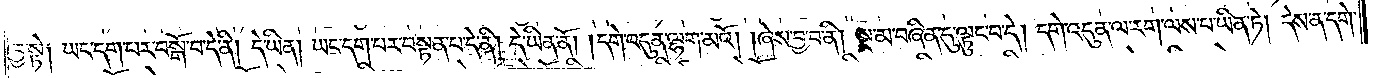བྱ་སྟེ༑ ཡང་དག་པར་བསྒོ་བ་དེ་ནི། དེ་ཡིན། ཡང་དག་པར་བསྟན་པ་དེ་ནི། དེ་ཡིན་ནོ། །དགེ་འདུན་ལྷག་མའོ། །ཞེས་བྱ་བ་ནི། སྔ་མ་བཞིན་དུ་ལྟུང་བ་དེ། དགེ་འདུན་ལ་རག་ལས་པ་ཡིན་ཏེ། དེས་ན་དགེ་
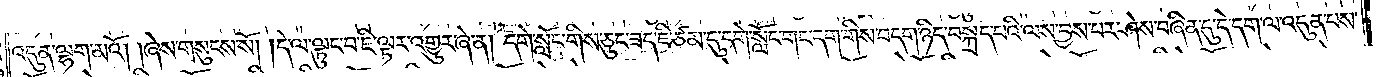འདུན་ལྷག་མའོ། །ཞེས་གསུངས་སོ། །དེ་ལ་ལྟུང་བ་ཇི་ལྟར་འགྱུར་ཞེ་ན། དགེ་སློང་གིས་ཅུང་ཟད་ཇི་ཙམ་དུ་དགེ་སློང་གང་དག་གིས་བདག་ཉིད་བསྐྲད་པའི་ལས་བྱས་པར་ཤེས་བཞིན་དུ་དེ་དག་ལ་འདུན་པས་
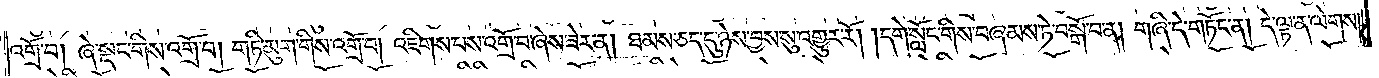འགྲོ་བ། ཞེ་སྡང་གིས་འགྲོ་བ། གཏི་མུག་གིས་འགྲོ་བ། འཇིགས་པས་འགྲོ་བ་ཞེས་ཟེར་ན། ཐམས་ཅད་དུ་ཉེས་བྱས་སུ་འགྱུར་རོ། །དགེ་སློང་གིས་བཞམས་ཏེ་བསྒོ་བ་ན། གཞི་དེ་གཏོང་ན། དེ་ལྟ་ན་ལེགས།
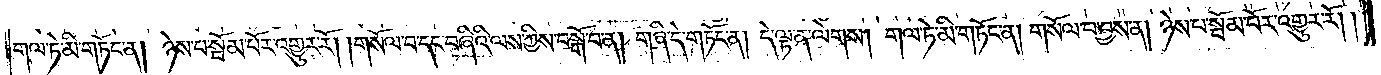གལ་ཏེ་མི་གཏོང་ན། ཉེས་པ་སྦོམ་པོར་འགྱུར་རོ། །གསོལ་བ་དང་བཞིའི་ལས་ཀྱིས་བསྒོ་བ་ན། གཞི་དེ་གཏོང་ན། དེ་ལྟ་ན་ལེགས། གལ་ཏེ་མི་གཏོང་ན། གསོལ་བ་བྱས་ན། ཉེས་པ་སྦོམ་པོར་འགྱུར་རོ། །
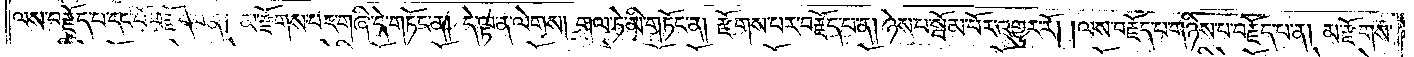ལས་བརྗོད་པ་དང་པོ་བརྗོད་པ་ན། མ་རྫོགས་པར་གཞི་དེ་གཏོང་ན། དེ་ལྟ་ན་ལེགས། གལ་ཏེ་མི་གཏོང་ན། རྫོགས་པར་བརྗོད་པ་ན། ཉེས་པ་སྦོམ་པོར་འགྱུར་རོ། །ལས་བརྗོད་པ་གཉིས་པ་བརྗོད་པ་ན། མ་རྫོགས་
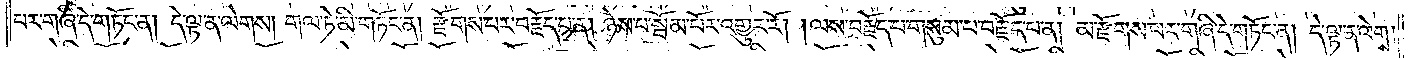པར་གཞི་དེ་གཏོང་ན། དེ་ལྟ་ན་ལེགས། གལ་ཏེ་མི་གཏོང་ན། རྫོགས་པར་བརྗོད་པ་ན། ཉེས་པ་སྦོམ་པོར་འགྱུར་རོ། །ལས་བརྗོད་པ་གསུམ་པ་བརྗོད་པ་ན། མ་རྫོགས་པར་གཞི་དེ་གཏོང་ན། དེ་ལྟ་ན་ལེགས་
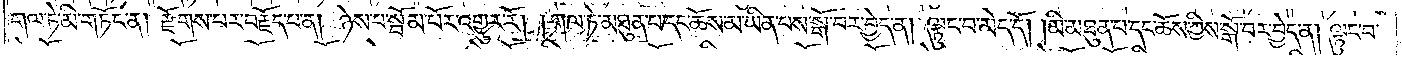གལ་ཏེ་མི་གཏོང་ན། རྫོགས་པར་བརྗོད་པ་ན། ཉེས་པ་སྦོམ་པོར་འགྱུར་རོ། །གལ་ཏེ་མཐུན་པ་དང་ཆོས་མ་ཡིན་པས་སྒོ་བར་བྱེད་ན། ལྟུང་བ་མེད་དོ། །མི་མཐུན་པ་དང་ཆོས་ཀྱིས་སྒོ་བར་བྱེད་ན། ལྟུང་བ་
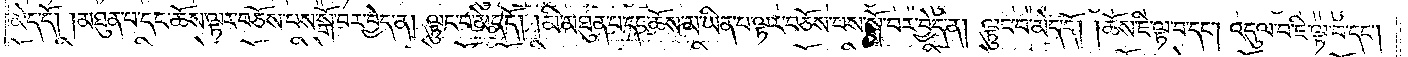མེད་དོ། །མཐུན་པ་དང་ཆོས་ལྟར་བཅོས་པས་སྒོ་བར་བྱེད་ན། ལྟུང་བ་མེད་དོ། །མི་མཐུན་པ་དང་ཆོས་མ་ཡིན་པ་ལྟར་བཅོས་པས་སྒོ་བར་བྱེད་ན། ལྟུང་བ་མེད་དོ། །ཆོས་ཇི་ལྟ་བ་དང༌། འདུལ་བ་ཇི་ལྟ་བ་དང༌།
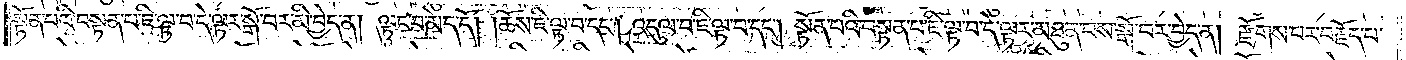སྟོན་པའི་བསྟེན་པ་ཇི་ལྟ་བ་དེ་ལྟར་སྒོ་བར་མི་བྱེད་ན། ལྟུང་བ་མེད་དོ། །ཆོས་ཇི་ལྟ་བ་དང༌། འདུལ་བ་ཇི་ལྟ་བ་དང༌། སྟོན་པའི་བསྟན་པ་ཇི་ལྟ་བ་དེ་ལྟར་མཐུན་པས་སྒོ་བར་བྱེད་ན། རྫོགས་པར་བརྗོད་པ་
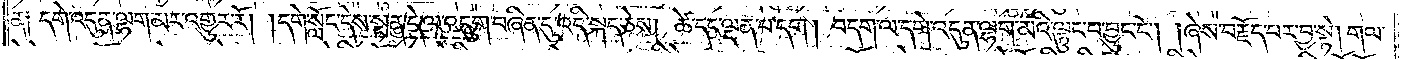ན༑ དགེ་འདུན་ལྷག་མར་འགྱུར་རོ། །དགེ་སློང་དེས་སྟན་དེ་ལ་འདུག་བཞིན་དུ་འདི་སྐད་ཅེས། ཚེ་དང་ལྡན་པ་དག །བདག་ལ་དགེ་འདུན་ལྷག་མའི་ལྟུང་བ་བྱུང་ངོ༌། །ཞེས་བརྗོད་པར་བྱ་སྟེ། གལ་
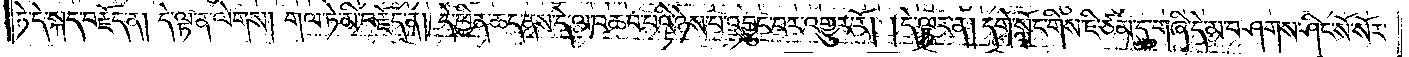ཏེ་དེ་སྐད་བརྗོད་ན། དེ་ལྟ་ན་ལེགས། གལ་ཏེ་མི་བརྗོད་ན། དེ་ཕྱིན་ཆད་ནས་དེ་ལ་འཆབ་པའི་ཉེས་པ་འབྱུང་བར་འགྱུར་རོ། །དེ་ལྟར་ན། དགེ་སློང་གིས་ཇི་ཙམ་དུ་གཞི་དེ་མ་བཤགས་ཤིང་སོ་སོར་
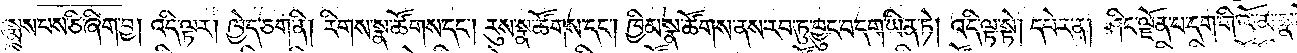སྨྲས་པས་ཅི་ཞིག་བྱ། འདི་ལྟར། ཁྱེད་ཅག་ནི། རིགས་སྣ་ཚོགས་དང༌། རུས་སྣ་ཚོགས་དང༌། ཁྱིམ་སྣ་ཚོགས་ནས་རབ་ཏུ་བྱུང་བ་དག་ཡིན་ཏེ། འདི་ལྟ་སྟེ། དཔེར་ན། ཤིང་ལྗོན་པ་དག་གི་ལོ་མ་སྣ་ཚོགས་
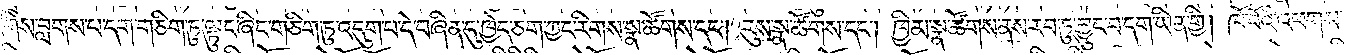རླུང་གིས་བླགས་པ་དག་གཅིག་ཏུ་ལྟུང་ཞིང་གཅིག་ཏུ་འདུག་པ་དེ་བཞིན་དུ་ཁྱེད་ཅག་ཀྱང་རིགས་སྣ་ཚོགས་དང༌། རུས་སྣ་ཚོགས་དང༌། ཁྱིམ་སྣ་ཚོགས་ནས་རབ་ཏུ་བྱུང་བ་དག་ཡིན་གྱི། ཁོ་བོའི་འཕགས་
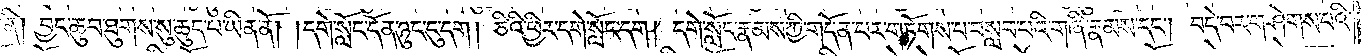ནི། བྱང་ཆུབ་ཐུགས་སུ་ཆུད་པ་ཡིན་ནོ། །དགེ་སློང་དོན་ཉུང་ངུ་དག །ཅིའི་ཕྱིར་དགེ་སློང་དག །དགེ་སློང་རྣམས་ཀྱི་གདོན་པར་གཏོགས་པ་བསླབ་པའི་གཞི་རྣམས་དང༌། བདེ་བར་གཤེགས་པའི་
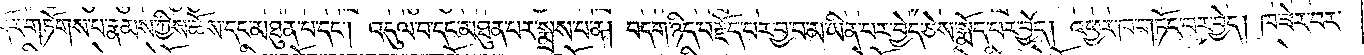མདོར་གཏོགས་པ་རྣམས་ཀྱིས་ཆོས་དང་མཐུན་པ་དང༌། འདུལ་བ་དང་མཐུན་པར་སྨྲས་པ་ན། བདག་ཉིད་བརྗོད་པར་བྱ་བ་མ་ཡིན་པར་བྱེད་ཅེས་སྨོད་པར་བྱེད། འཕྱར་ཁ་གཏོང་བར་བྱེད། ཁ་ཟེར་བར་
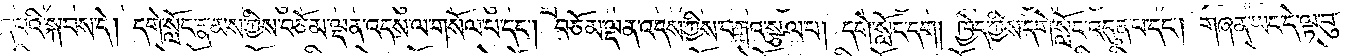བྱེད་པའི་སྐབས་དེ། དགེ་སློང་རྣམས་ཀྱིས་བཅོམ་ལྡན་འདས་ལ་གསོལ་བ་དང༌། བཅོམ་ལྡན་འདས་ཀྱིས་བཀའ་སྩལ་པ། དགེ་སློང་དག །ཁྱེད་ཀྱིས་དགེ་སློང་འདུན་པ་དང༌། གཞན་ཡང་དེ་ལྟ་བུ་
